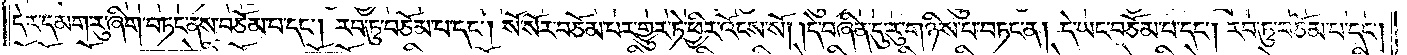དེར་དམག་རུ་ཞིག་བཏང་ནས་བཅོམ་པ་དང༌། རབ་ཏུ་བཅོམ་པ་དང༌། སོ་སོར་བཅོམ་པར་གྱུར་ཏེ་ཕྱིར་འོངས་སོ། །དེ་བཞིན་དུ་རུ་གཉིས་པ་བཏང་ན། དེ་ཡང་བཅོམ་པ་དང༌། རབ་ཏུ་བཅོམ་པ་དང༌།
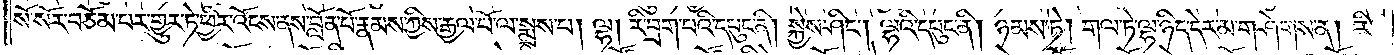སོ་སོར་བཅོམ་པར་གྱུར་ཏེ་ཕྱིར་འོངས་ནས་བློན་པོ་རྣམས་ཀྱིས་རྒྱལ་པོ་ལ་སྨྲས་པ། ལྷ། རི་བྲག་པའི་དཔུང་ནི། སྐྱེས་ཤིང༌། ལྷའི་དཔུང་ནི། ཉམས་ཏེ། གལ་ཏེ་ལྷ་ཉིད་དེར་མ་གཤེགས་ན། རི་
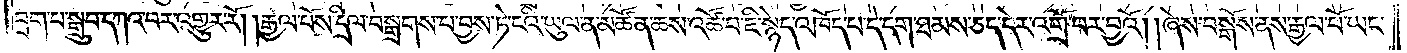བྲག་པ་སྒྲུབ་དཀའ་བར་འགྱུར་རོ། །རྒྱལ་པོས་དྲིལ་བསྒྲགས་པ་བྱས་ཏེ་ངའི་ཡུལ་ན་མཚོན་ཆས་འཚོ་བ་ཇི་སྙེད་འཁོད་པ་དེ་དག་ཐམས་ཅད་དེར་འགྲོ་བར་བྱའོ། །ཞེས་བསྒོས་ནས་རྒྱལ་པོ་ཡང་
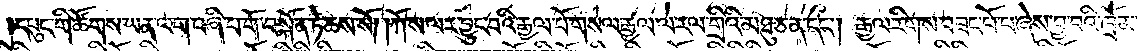དཔུང་གི་ཚོགས་ཡན་ལག་བཞི་པ་གོ་བསྐོན་ཏེ་ཆས་སོ། །ཀོ་ས་ལར་བྱུང་བའི་རྒྱལ་པོ་གསལ་རྒྱལ་ལ་རལ་གྲིའི་མཐུ་ཅན་དང༌། རྒྱལ་རིགས་བཟང་པོ་པ་ཞེས་བྱ་བའི་ཁྲོམ་
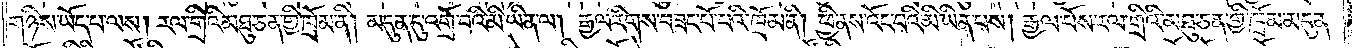གཉིས་ཡོད་པ་ལས། རལ་གྲིའི་མཐུ་ཅན་གྱི་ཁྲོམ་ནི། མདུན་དུ་འགྲོ་བའི་མི་ཡིན་ལ། རྒྱལ་རིགས་བཟང་པོ་པའི་ཁྲོམ་ནི། ཕྱི་ནས་འོང་བའི་མི་ཡིན་པས། རྒྱལ་པོས་རལ་གྲིའི་མཐུ་ཅན་གྱི་ཁྲོམ་མདུན་
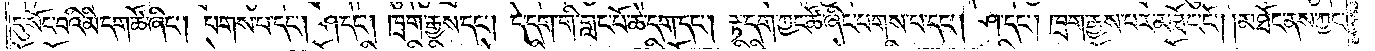དུ་སོང་བའི་མི་དག་ཚོ་ཞིང༌། པགས་པ་དང༌། ཤ་དང༌། ཁྲག་རྒྱས་དང༌། དེ་དག་གི་གླང་པོ་ཆེ་དག་དང༌། རྟ་དག་ཀྱང་ཚོ་ཞིང་པགས་པ་དང༌། ཤ་དང༌། ཁྲག་རྒྱས་པར་མཐོང་ངོ༌། །མཐོང་ནས་ཀྱང་
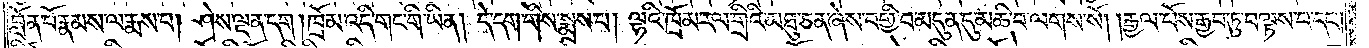བློན་པོ་རྣམས་ལ་རྨས་པ། ཤེས་ལྡན་དག །ཁྲོམ་འདི་གང་གི་ཡིན། དེ་དག་གིས་སྨྲས་པ། ལྷའི་ཁྲོམ་རལ་གྲིའི་མཐུ་ཅན་ཞེས་བགྱི་བ་མདུན་དུ་མཆི་བ་ལགས་སོ། །རྒྱལ་པོས་རྒྱབ་ཏུ་བལྟས་པ་དང༌།
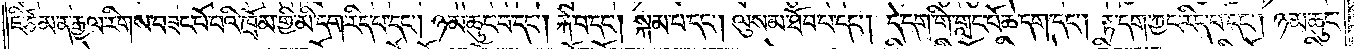ཇི་ཙམ་ན་རྒྱལ་རིགས་བཟང་པོ་པའི་ཁྲོམ་གྱི་མི་དག་རིད་པ་དང༌། ཉམ་ཆུང་པ་དང༌། རྐེ་བ་དང༌། སྐམ་པ་དང༌། ལུས་མ་ཐོབ་པ་དང༌། དེ་དག་གི་གླང་པོ་ཆེ་དག་དང༌། རྟ་དག་ཀྱང་རིད་པ་དང༌། ཉམ་ཆུང་
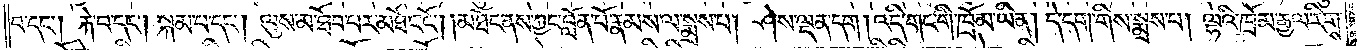བ་དང༌། རྐེ་བ་དང༌། སྐམ་པ་དང༌། ལུས་མ་ཐོབ་པར་མཐོང་ངོ༌། །མཐོང་ནས་ཀྱང་བློན་པོ་རྣམས་ལ་སྨྲས་པ། ཤེས་ལྡན་དག །འདི་གང་གི་ཁྲོམ་ཡིན། དེ་དག་གིས་སྨྲས་པ། ལྷའི་ཁྲོམ་རྒྱལ་རིགས་
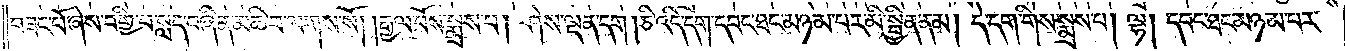བཟང་པོ་ཞེས་བགྱི་བསླད་བཞིན་མཆི་བ་ལགས་སོ། །རྒྱལ་པོས་སྨྲས་པ། ཤེས་ལྡན་དག །ཅི་འདི་དག་དབང་ཐང་མཉམ་པར་མི་སྦྱིན་ནས། དེ་དག་གིས་སྨྲས་པ། ལྷ། དབང་ཐང་མཉམ་པར་
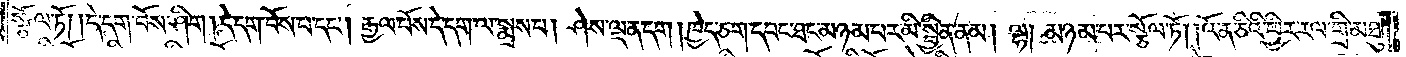སྩོལ་ཏོ། །དེ་དག་བོས་ཤིག །དེ་དག་བོས་པ་དང༌། རྒྱལ་པོས་དེ་དག་ལ་སྨྲས་པ། ཤེས་ལྡན་དག །ཁྱེད་ཅག་དབང་ཐང་མཉམ་པར་མི་སྦྱིན་ནམ། ལྷ། མཉམ་པར་སྩོལ་ཏོ། །འོ་ན་ཅིའི་ཕྱིར་རལ་གྲི་མཐུ་
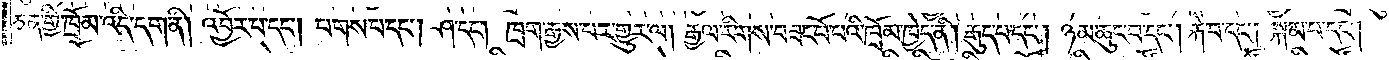ཅན་གྱི་ཁྲོམ་འདི་དག་ནི། འབྱོར་པ་དང༌། པགས་པ་དང༌། ཤ་དང༌། ཁྲག་རྒྱས་པར་གྱུར་ལ། རྒྱལ་རིགས་བཟང་པོ་པའི་ཁྲོམ་ཁྱེད་ནི། རྒུད་པ་དང༌། ཉམ་ཆུང་བ་དང༌། རྐེ་བ་དང༌། སྐམ་པ་དང༌།
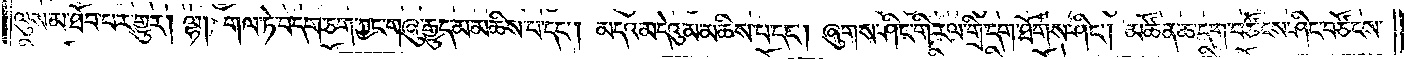ལུས་མ་ཐོབ་པར་གྱུར། ལྷ། གལ་ཏེ་བདག་ཅག་ཀྱང་གཞུ་རྒྱུད་མ་མཆིས་པ་དང༌། མདའ་མདེའུ་མ་མཆིས་པ་དང༌། ཞུགས་ཤིང་གི་རལ་གྲི་དག་ཐོགས་ཤིང༌། མཚོན་ཆ་དག་བཙོངས་ཤིང་བཙོངས་
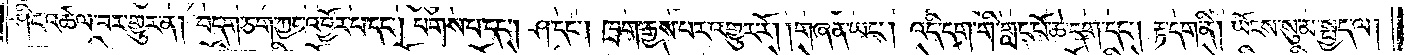ཤིང་འཚལ་བར་གྱུར་ན། བདག་ཅག་ཀྱང་འབྱོར་པ་དང༌། པགས་པ་དང༌། ཤ་དང༌། ཁྲག་རྒྱས་པར་འགྱུར་རོ། །གཞན་ཡང༌། འདི་དག་གི་གླང་པོ་ཆེ་དག་དང༌། རྟ་དག་ནི། ཡོངས་སུ་མ་སྤྱད་ལ།
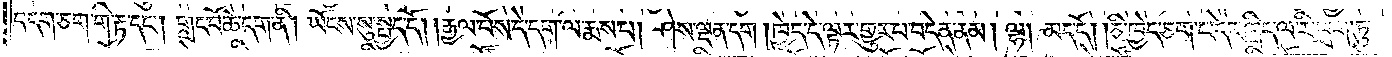བདག་ཅག་གི་རྟ་དང༌། གླང་པོ་ཆེ་དག་ནི། ཡོངས་སུ་སྤྱད་དོ། །རྒྱལ་པོས་དེ་དག་ལ་རྨས་པ། ཤེས་ལྡན་དག །ཁྱེད་དེ་ལྟར་གྱུར་པ་བདེན་ནམ། ལྷ། མད་དོ། །ཅི་ཁྱེད་ཅག་ང་དེར་ཁྲིད་ལ་རི་བྲག་ཏུ་
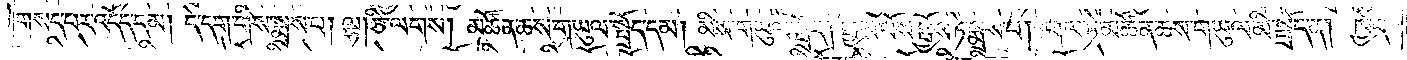གསད་པར་འདོད་དམ། དེ་དག་གིས་སྨྲས་པ། ལྷ། ཅི་ལགས། མཚོན་ཆས་གཡུལ་སྤྲོད་དམ། མིས་གཡུལ་སྤྲོད། རྒྱལ་པོས་སྤྱོས་ཏེ་སྨྲས་པ། གལ་ཏེ་མཚོན་ཆས་གཡུལ་མི་སྤྲོད་ན། ཁྱེད་
